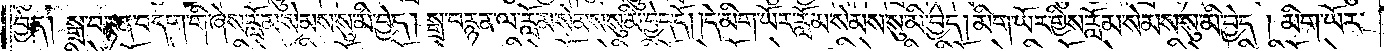བྱེད། སྒྲ་བརྙན་བདག་གི་ཞེས་རློམ་སེམས་སུ་མི་བྱེད། སྒྲ་བརྙན་ལ་རློམ་སེམས་སུ་མི་བྱེད་དོ། །དེ་མིག་ཡོར་རློམ་སེམས་སུ་མི་བྱེད། མིག་ཡོར་གྱིས་རློམ་སེམས་སུ་མི་བྱེད། མིག་ཡོར་
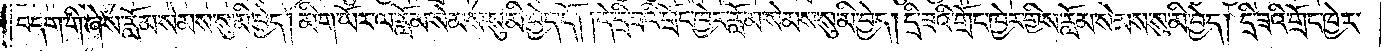བདག་གི་ཞེས་རློམ་སེམས་སུ་མི་བྱེད། མིག་ཡོར་ལ་རློམ་སེམས་སུ་མི་བྱེད་དོ། །དེ་དྲི་ཟའི་གྲོང་ཁྱེར་རློམ་སེམས་སུ་མི་བྱེད། དྲི་ཟའི་གྲོང་ཁྱེར་གྱིས་རློམ་སེམས་སུ་མི་བྱེད། དྲི་ཟའི་གྲོང་ཁྱེར་
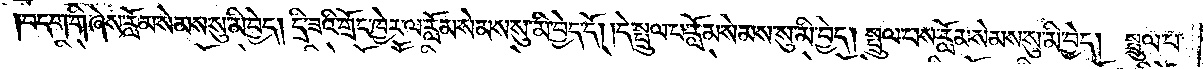བདག་གི་ཞེས་རློམ་སེམས་སུ་མི་བྱེད། དྲི་ཟའི་གྲོང་ཁྱེར་ལ་རློམ་སེམས་སུ་མི་བྱེད་དོ། །དེ་སྤྲུལ་པ་རློམ་སེམས་སུ་མི་བྱེད། སྤྲུལ་པས་རློམ་སེམས་སུ་མི་བྱེད། སྤྲུལ་པ་
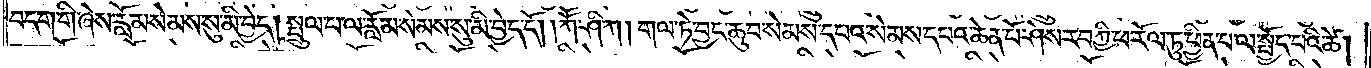བདག་གི་ཞེས་རློམ་སེམས་སུ་མི་བྱེད། སྤྲུལ་པ་ལ་རློམ་སེམས་སུ་མི་བྱེད་དོ། །ཀཽ་ཤི་ཀ། གལ་ཏེ་བྱང་ཆུབ་སེམས་དཔའ་སེམས་དཔའ་ཆེན་པོ་ཤེས་རབ་ཀྱི་ཕ་རོལ་ཏུ་ཕྱིན་པ་ལ་སྤྱོད་པའི་ཚེ།
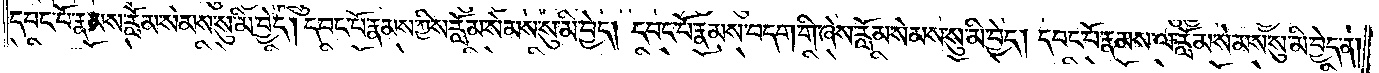དབང་པོ་རྣམས་རློམ་སེམས་སུ་མི་བྱེད། དབང་པོ་རྣམས་ཀྱིས་རློམ་སེམས་སུ་མི་བྱེད། དབང་པ་རྣམ་བདག་གི་ཞེས་རློམ་སེམས་སུ་མི་བྱེད། དབང་པོ་རྣམས་ལ་རློམ་སེམས་སུ་མི་བྱེད་ན།
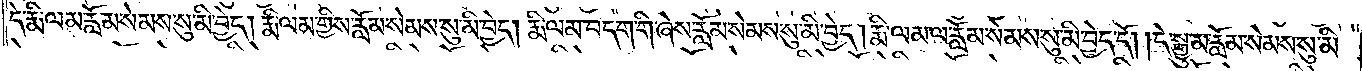དེ་རྨི་ལམ་རློམ་སེམས་སུ་མི་བྱེད། རྨི་ལམ་གྱིས་རློམ་སེམས་སུ་མི་བྱེད། རྨི་ལམ་བདག་གི་ཞེས་རློམ་སེམས་སུ་མི་བྱེད། རྨི་ལམ་ལ་རློམ་སེམས་སུ་མི་བྱེད་དོ། །དེ་སྒྱུ་མ་རློམ་སེམས་སུ་མི་
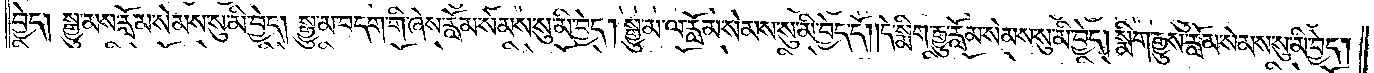བྱེད། སྒྱུ་མས་རློམ་སེམས་སུ་མི་བྱེད། སྒྱུ་མ་བདག་གི་ཞེས་རློམ་སེམས་སུ་མི་བྱེད། སྒྱུ་མ་ལ་རློམ་སེམས་སུ་མི་བྱེད་དོ། །དེ་སྨིག་རྒྱུ་རློམ་སེམས་སུ་མི་བྱེད། སྨིག་རྒྱུས་རློམ་སེམས་སུ་མི་བྱེད།
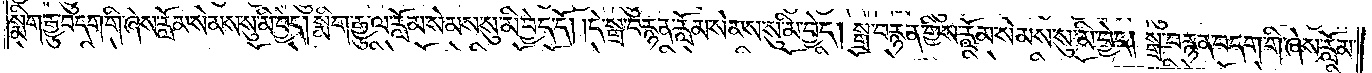སྨིག་རྒྱུ་བདག་གི་ཞེས་རློམ་སེམས་སུ་མི་བྱེད། སྨིག་རྒྱུ་ལ་རློམ་སེམས་སུ་མི་བྱེད་དོ། །དེ་སྒྲ་བརྙན་རློམ་སེམས་སུ་མི་བྱེད། སྒྲ་བརྙན་གྱིས་རློམ་སེམས་སུ་མི་བྱེད། སྒྲ་བརྙན་བདག་གི་ཞེས་རློམ་
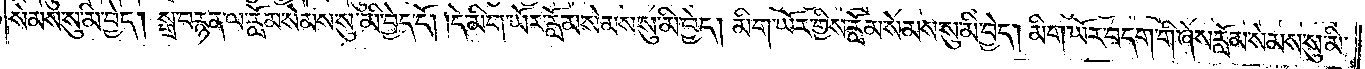སེམས་སུ་མི་བྱེད། སྒྲ་བརྙན་ལ་རློམ་སེམས་སུ་མི་བྱེད་དོ། །དེ་མིག་ཡོར་རློམ་སེམས་སུ་མི་བྱེད། མིག་ཡོར་གྱིས་རློམ་སེམས་སུ་མི་བྱེད། མིག་ཡོར་བདག་གི་ཞེས་རློམ་སེམས་སུ་མི་
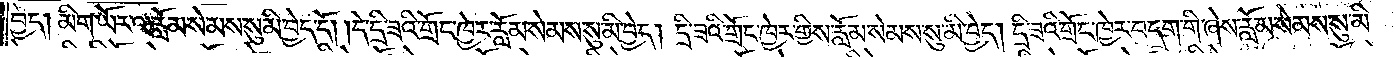བྱེད། མིག་ཡོར་ལ་རློམ་སེམས་སུ་མི་བྱེད་དོ། །དེ་དྲི་ཟའི་གྲོང་ཁྱེར་རློམ་སེམས་སུ་མི་བྱེད། དྲི་ཟའི་གྲོང་ཁྱེར་གྱིས་རློམ་སེམས་སུ་མི་བྱེད། དྲི་ཟའི་གྲོང་ཁྱེར་བདག་གི་ཞེས་རློམ་སེམས་སུ་མི་
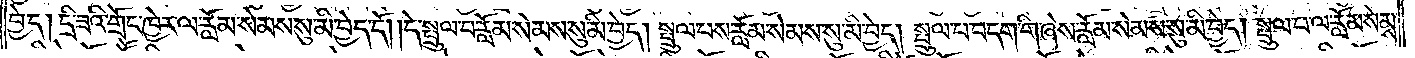བྱེད། དྲི་ཟའི་གྲོང་ཁྱེར་ལ་རློམ་སེམས་སུ་མི་བྱེད་དོ། །དེ་སྤྲུལ་པ་རློམ་སེམས་སུ་མི་བྱེད། སྤྲུལ་པས་རློམ་སེམས་སུ་མི་བྱེད། སྤྲུལ་པ་བདག་གི་ཞེས་རློམ་སེམས་སུ་མི་བྱེད། སྤྲུལ་པ་ལ་རློམ་སེམས་
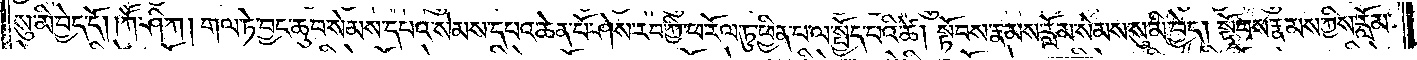སུ་མི་བྱེད་དོ། །ཀཽ་ཤི་ཀ། གལ་ཏེ་བྱང་ཆུབ་སེམས་དཔའ་སེམས་དཔའ་ཆེན་པོ་ཤེས་རབ་ཀྱི་ཕ་རོལ་ཏུ་ཕྱིན་པ་ལ་སྤྱོད་པའི་ཚེ། སྟོབས་རྣམས་རློམ་སེམས་སུ་མི་བྱེད། སྟོབས་རྣམས་ཀྱིས་རློམ་
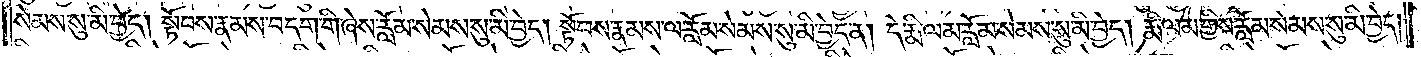སེམས་སུ་མི་བྱེད། སྟོབས་རྣམས་བདག་གི་ཞེས་རློམ་སེམས་སུ་མི་བྱེད། སྟོབས་རྣམས་ལ་རློམ་སེམས་སུ་མི་བྱེད་ན། དེ་རྨི་ལམ་རློམ་སེམས་སུ་མི་བྱེད། རྨི་ལམ་གྱིས་རློམ་སེམས་སུ་མི་བྱེད།
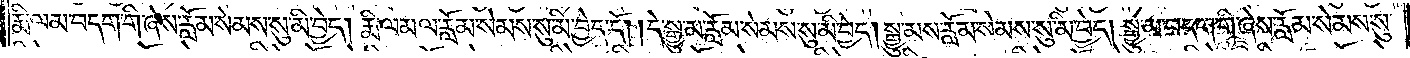རྨི་ལམ་བདག་གི་ཞེས་རློམ་སེམས་སུ་མི་བྱེད། རྨི་ལམ་ལ་རློམ་སེམས་སུ་མི་བྱེད་དོ། །དེ་སྒྱུ་མ་རློམ་སེམས་སུ་མི་བྱེད། སྒྱུ་མས་རློམ་སེམས་སུ་མི་བྱེད། སྒྱུ་མ་བདག་གི་ཞེས་རློམ་སེམས་སུ་
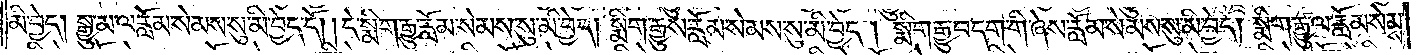མི་བྱེད། སྒྱུ་མ་ལ་རློམ་སེམས་སུ་མི་བྱེད་དོ། །དེ་སྨིག་རྒྱུ་རློམ་སེམས་སུ་མི་བྱེད། སྨིག་རྒྱུས་རློམ་སེམས་སུ་མི་བྱེད། སྨིག་རྒྱུ་བདག་གི་ཞེས་རློམ་སེམས་སུ་མི་བྱེད། སྨིག་རྒྱུ་ལ་རློམ་སེམས་
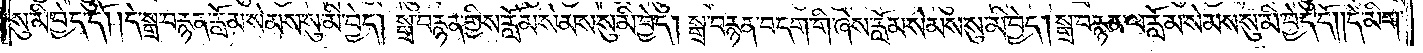སུ་མི་བྱེད་དོ། །དེ་སྒྲ་བརྙན་རློམ་སེམས་སུ་མི་བྱེད། སྒྲ་བརྙན་གྱིས་རློམ་སེམས་སུ་མི་བྱེད། སྒྲ་བརྙན་བདག་གི་ཞེས་རློམ་སེམས་སུ་མི་བྱེད། སྒྲ་བརྙན་ལ་རློམ་སེམས་སུ་མི་བྱེད་དོ། །དེ་མིག་
